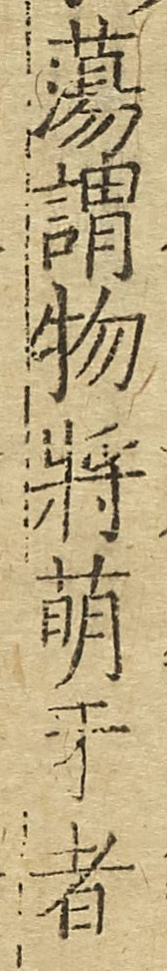蕩謂物將萌牙者
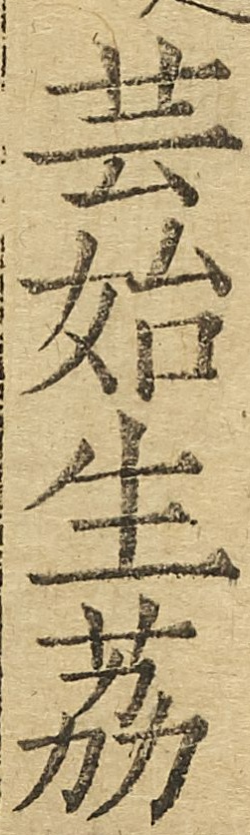芸始生荔
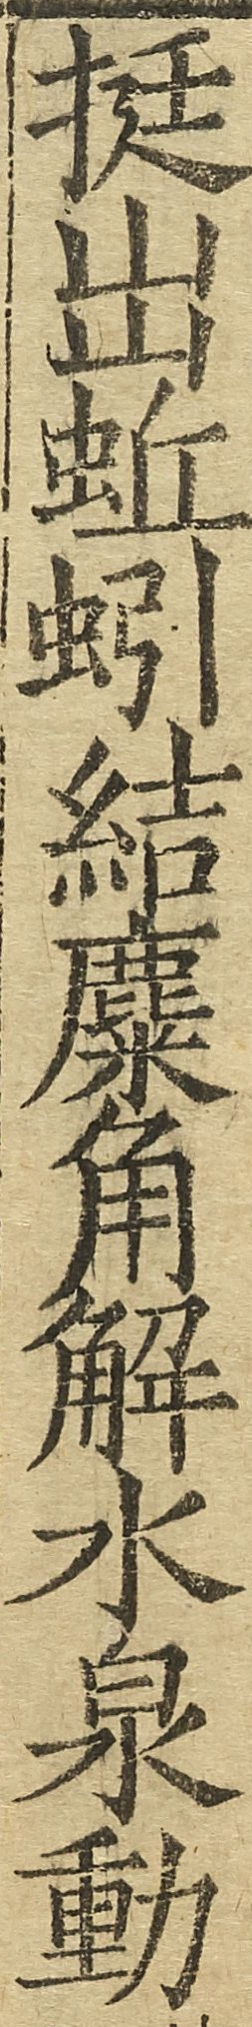挺出蚯蚓結麋角解水泉動
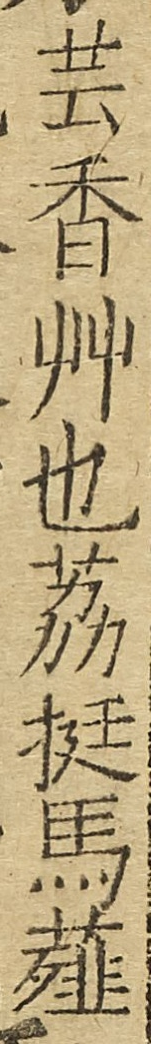芸香艸也荔挺馬薤
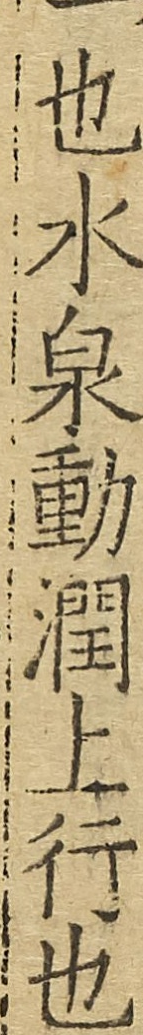也水泉動潤上行也
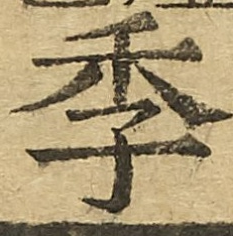季
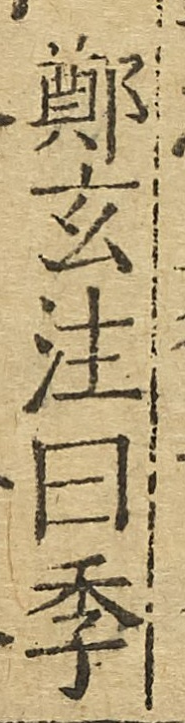鄭玄注曰季
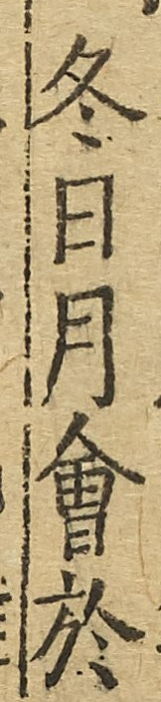冬日月會於
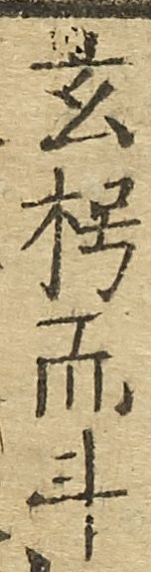玄枵而斗
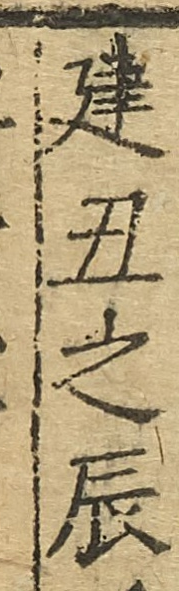建丑之辰
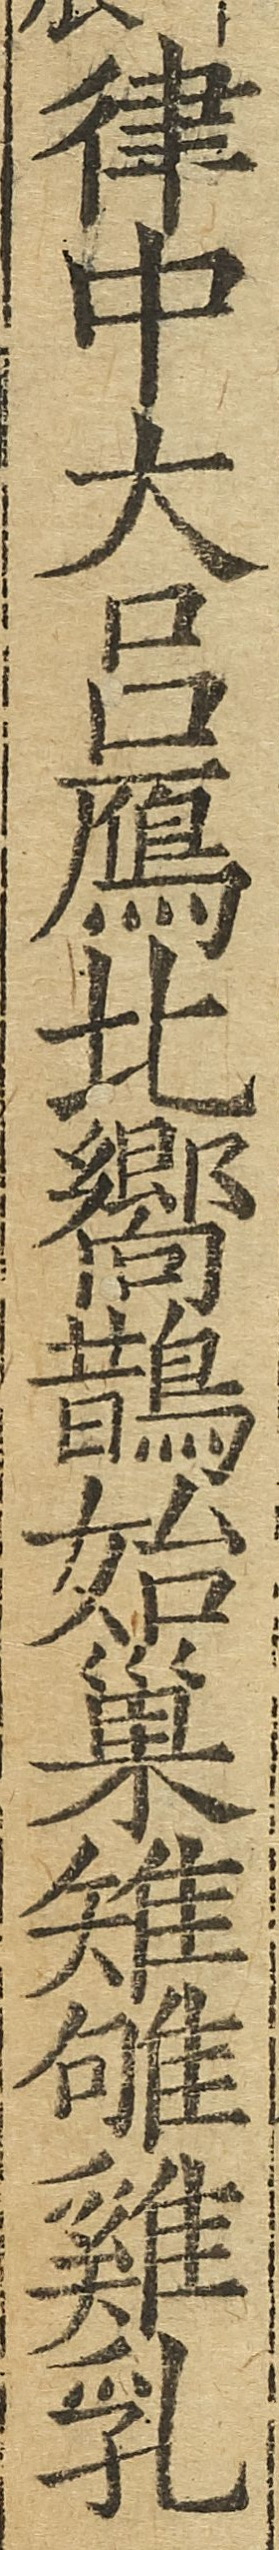律中大呂鴈北嚮鵲始巢雉雊雞乳
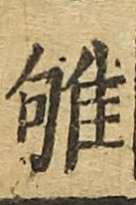雊
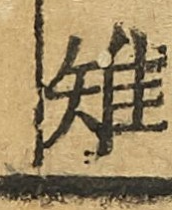雉
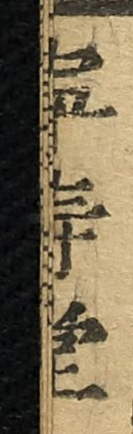寧壽堂
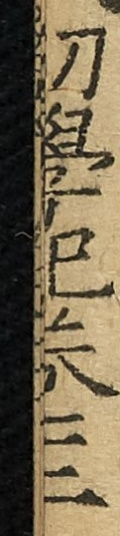初學記卷三
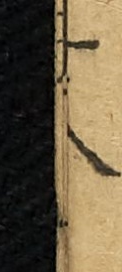十八
